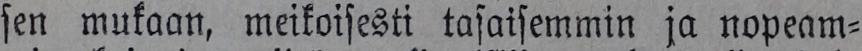sen mukaan, meikoisesti tasaisemmin ja nopeam-
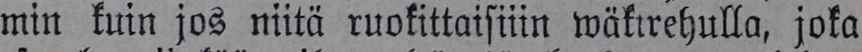min kuin jos niitä ruokittaisiiin wäkirehulla, joka
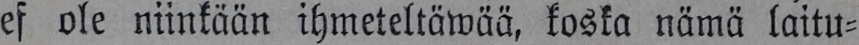ef ole niinkään ihmeteltäwää, koska nämä laitu-
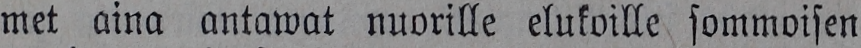met aina antawat nuorille elukoille sommoisen
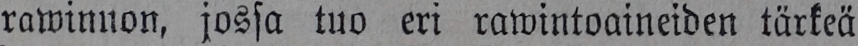rawinnon, jossa tuo eri rawintoaineiden tärkeä
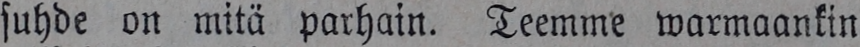suhde on mitä parhain. Teemme warmaankin
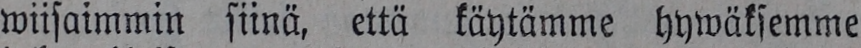wiisaimmin siinä, että käytämme hywäksemme
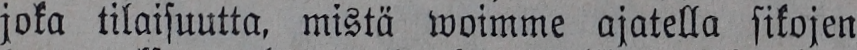joka tilaisuutta, mistä woimme ajatella sikojen
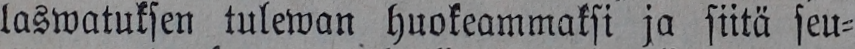laswatuksen tulewan huokeammaksi ja siitä seu-
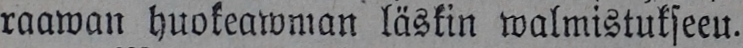raawan huokeawman läskin walmistukseeu.
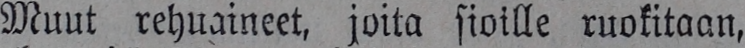Muut rehuaineet, joita sioille ruokitaan,
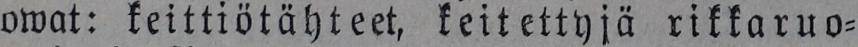owat: keittiötähteet, keitettyjä rikkaruo-
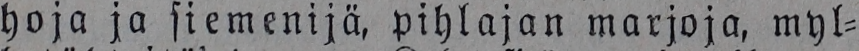hoja ja siemenijä, pihlajan marjoja, myl-
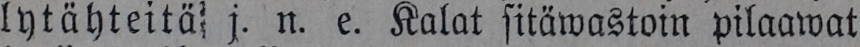lytähteitä' j. n. e. Kalat sitäwastoin pilaawat
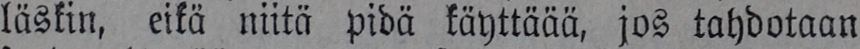läskin, eikä niitä pidä käyttäää, jos tahdotaan
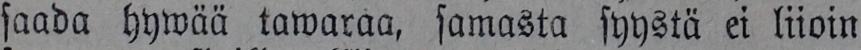saada hywää tawaraa, samasta syystä ei liioin
